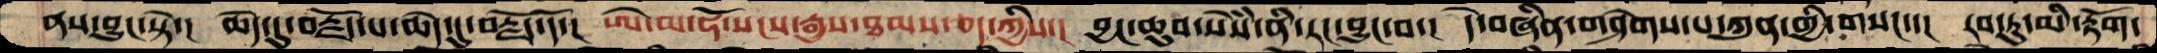ནས་བྱུང་སྟེ་།  ཆེད་དུ་བརྗོད་པ་ཆེད་དུ་བརྗོད་དོ་།  ཨེ་མ་ཧོ་སངས་རྒྱས་ཐམས་ཅད་ཀྱིས་།  བྱང་ཆུབ་སེཾས་ནི་རང་བྱུང་བ་།  དེ་བཞིན་གཤེགས་པ་ཀུན་གྱི་གསང་་།  རབ་ཏུ་མི་རྟོག་
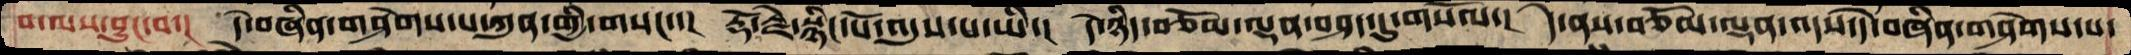བ་ལས་བྱུང་བ་།  དེ་བཞིན་གཤེགས་པ་ཀུན་གྱི་གསང་་།  རྡོ་རྗེ་སྙིང་པོ་འདུས་པ་ཡི་།  དེ་ཉིད་བཅོམ་ལྡན་བཤད་དུ་གསོལ་།  དེ་ནས་བཅོམ་ལྡན་འདས་དེ་བཞིན་གཤེགས་པ་
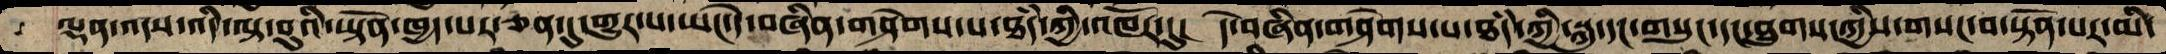ལྡན་འདས་འདི་ལྟ་བུའི་ཡྟོན་ཁྱད་པར་ཅན་དུ་གྱུར་པ་ཡང་དེ་བཞིན་གཤེགས་པ་ཐཾད་ཀྱི་འཁོར་དུ།  དེ་བཞིན་གཤེགས་པ་ཐཾད་ཀྱི་སྐུ་དང་གསུང་དང་ཐུགས་ཀྱིས་གསང་བ་སྟོན་པར་མི་
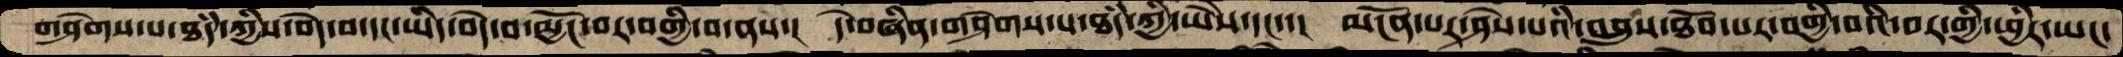གཤེགས་པ་ཐཾད་ཀྱིས་བདེ་བ་དང་ཡིད་བདེ་བ་མྱོང་བར་བགྱི་བ་ནས་།  དེ་བཞིན་གཤེགས་པ་ཐཾད་ཀྱི་ཡཻས་དང་་།  མངོན་པར་ཤེས་པའི་འབྲུས་ཐོབ་པར་བགྱི་བའི་བར་གྱི་ཕྱིར་ཡང་
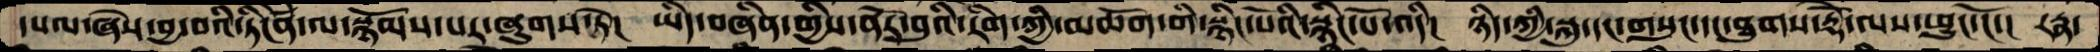དཔལ་ཞེས་བྱ་བའི་ཏིངེནི་ལ་སྙོམས་པར་ཞུགས་ཏེ་།  ཡིད་བཞིན་གྱིས་ནོར་བུའི་རིག་ཀྱི་མཆོག་གི་སྙིང་པོའི་སྙིང་པོ་འདི་།  ཉིད་ཀྱི་སྐུ་དང་གསུང་དང་ཐུགས་རྡོེ་ལས་ཕྱུང་ངོ་།  རཏྣ་
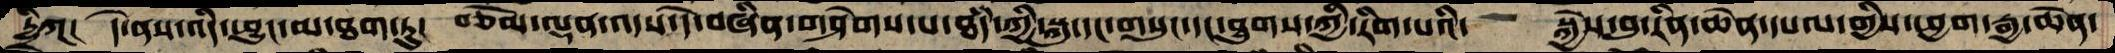ཏྱིཀ་།  དེ་ནས་འདི་ཕྱུང་མ་ཐག་ཏུ།  བཅོམ་ལྡན་འདས་དེ་བཞིན་གཤེགས་པ་ཐཾད་ཀྱི་སྐུ་དང་གསུང་དང་ཐུགས་ཀྱི་རིག་པའི་  སྐྱེས་བུ་རིན་ཆེན་དཔལ་གྱིས་ཕྱག་རྒྱ་ཆེན་
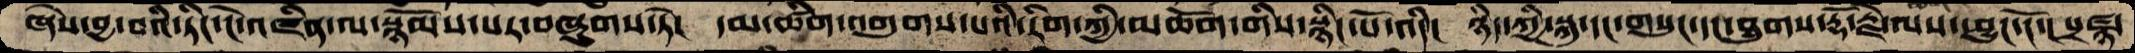ཞེས་བྱ་བའི་ཏིང་ངེ་འཛིན་ལ་སྙོམས་པར་བཞུགས་ཏེ་།  དམ་ཚིག་འགུགས་པའི་རིག་ཀྱི་མཆོག་གིས་སྙིང་པོ་འདི་།  ཉིད་ཀྱི་སྐུ་དང་གསུང་དང་ཐུགས་རྡོ་རྗེ་ལས་ཕྱུང་ངོ་།  པྲ་ཛྙ་
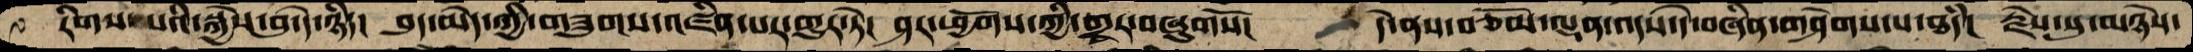རིགས་པའི་སྐྱེས་བུ་དེ་ཉིད་།  བུད་མེད་ཀྱི་གཟུགས་འཛིན་པར་གྱུར་ཏེ་།  ཤར་ཕྱོགས་ཀྱི་གྲྭར་བཞུགསོ་།  དེ་ནས་བཅོམ་ལྡན་འདས་དེ་བཞིན་གཤེགས་པ་ཐཾད།  རྗེས་སུ་མཉེས་
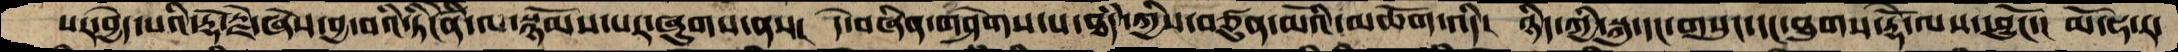སར་བྱེད་པའི་རྡོ་རྗེ་ཞེས་བྱ་བའི་ཏིངེནི་ལ་སྙོམས་པར་ཞུགས་ནས་།  དེ་བཞིན་གཤེགས་པ་ཐཾད་ཀྱིས་བཙུན་མོའི་མཆོག་འདི།  ཉིད་ཀྱི་སྐུ་དང་གསུང་དང་ཐུགས་རྡོེ་ལས་ཕྱུངོ་།  མོ་ཧ་ར་
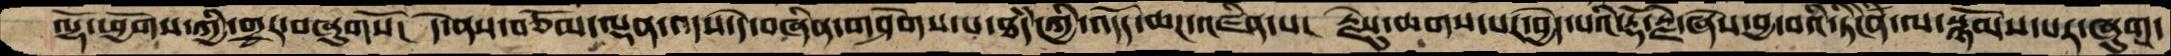ལྷོ་ཕྱོགས་ཀྱི་གྲྭར་བཞུགསོ། དེ་ནས་བཅོམ་ལྡན་འདས་དེ་བཞིན་གཤེགས་པ་ཐཾད་ཀྱི་འདོད་ཆཌ་འཛིན་པ། རྗེསུ་ཆགས་པར་བྱེད་པའི་རྡོ་རྗེ་ཞེས་བྱ་བའི་ཏིངེཛིན་ལ་སྙོམས་པར་ཞུགས་
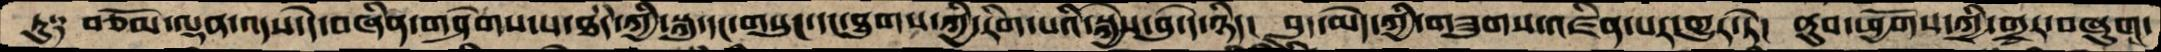ཏུ༑  བཅོམ་ལྡན་འདས་དེ་བཞིན་གཤེགས་པ་ཐཾད་ཀྱི་སྐུ་དང་གསུང་དང་ཐུགས་ཀྱི་རིག་པའི་སྐྱེས་བུ་དེ་ཉིད། བུད་མེད་ཀྱི་གཟུགས་འཛིན་པར་གྱུར་ཏེ། ནུབ་ཕྱོགས་ཀྱི་གྲྭར་བཞུགས་
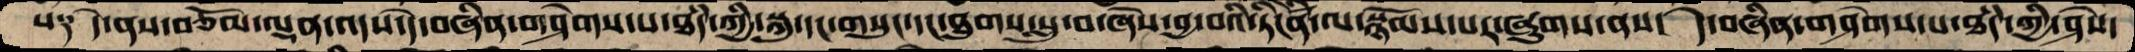པ༑  དེ་ནས་བཅོམ་ལྡན་འདས་དེ་བཞིན་གཤེགས་པ་ཐཾད་ཀྱི་སྐུ་དང་གསུང་དང་ཐུགས་སླུ་བ་ཞེས་བྱ་བའི་ཏིངེཛིན་ལ་སྙོམས་པར་ཞུགས་ནས། དེ་བཞིན་གཤེགས་པ་ཐཾད་ཀྱི་ཤེས་
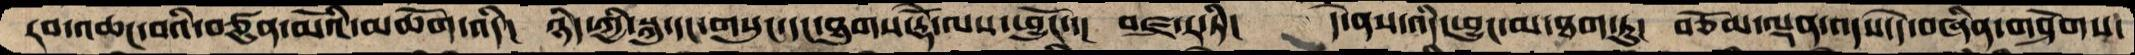རབ་འཆང་བའི་བཙུན་མོའི་མཆོག་འདི།  ཉིད་ཀྱི་སྐུ་དང་གསུང་དང་ཐུགས་རྡོེ་ལས་ཕྱུངོ་་།  བཛྲ་ར་ཏི།    དེ་ནས་འདི་ཕྱུང་མ་ཐག་ཏུ། བཅོམ་ལྡན་འདས་དེ་བཞིན་གཤེགས་
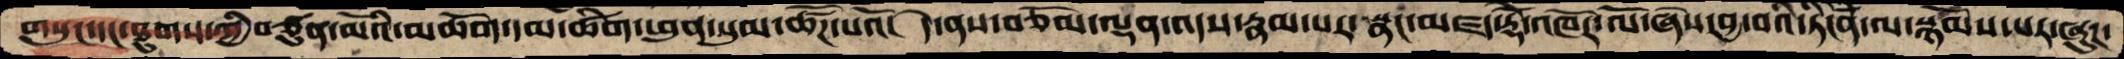གསུང་དང་ཐུགས་ཀྱི་བཙུན་མོའི་མཆོག་དམ་ཚིག་ཕུན་སུམ་ཚོཌ་པའོ། དེ་ནས་བཅོམ་ལྡན་འདས་རྣམ་པར་སྣང་མཛད་རྡོེ་འཁོར་ལོ་ཞེས་བྱ་བའི་ཏིངེཛིན་ལ་སྙོམས་པར་ཞུཌ་
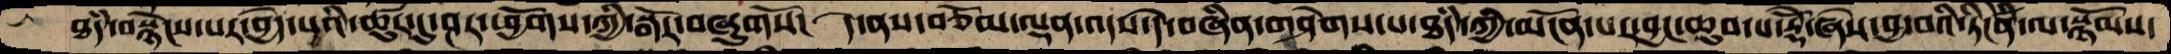ཐཾད་བསྙེངས་པར་བྱེད་པའི་ཚུར་དུ་ཤར་ཕྱོགས་ཀྱི་སྒོར་བཞུགསོ།  དེ་ནས་བཅོམ་ལྡན་འདས་དེ་བཞིན་གཤེགས་པ་ཐཾད་ཀྱི་མངོན་པར་བྱང་ཆུབ་པ་རྡོེ་ཞེས་བྱ་བའི་ཏིངེཛིན་ལ་སྙོམས་
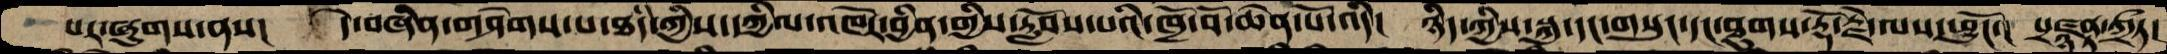པར་ཞུགས་ནས།  དེ་བཞིན་གཤེགས་པ་ཐཾད་ཀྱིས་དཀྱིལ་འཁོར་བྱིན་གྱིས་རློབས་པའི་ཁྲོ་བོ་ཆེན་པོ་འདི།  ཉིད་ཀྱིས་སྐུ་དང་གསུང་དང་ཐུགས་རྡོ་རྗེ་ལས་ཕྱུངོ་།  པྲཛྙནྟ་ཀྲྀཏ།
